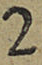2
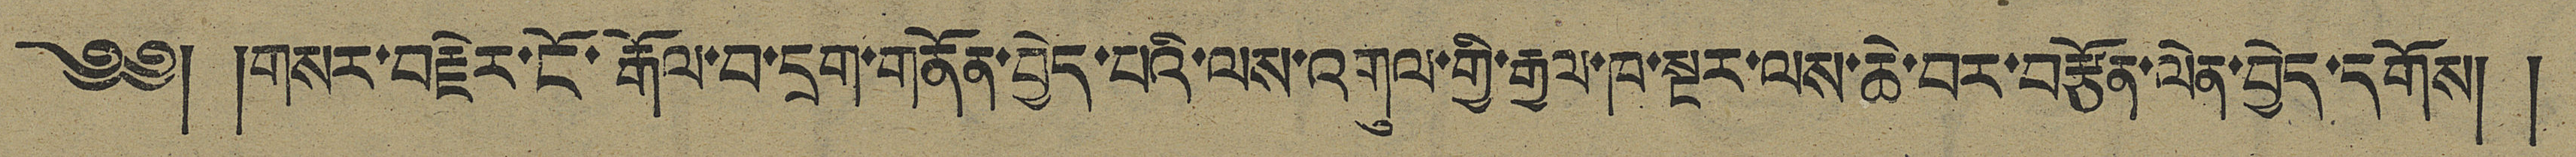༄༅། །གསར་བརྗེར་ངོ་རྒོལ་བ་དྲག་གནོན་བྱེད་པའི་ལས་འགུལ་གྱི་རྒྱལ་ཁ་སྔར་ལས་ཆེ་བར་བརྩོན་ལེན་བྱེད་དགོས། །
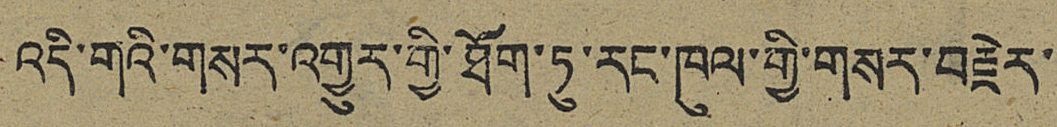འདི་གའི་གསར་འགྱུར་གྱི་ཐོག་ཏུ་རང་ཁུལ་གྱི་གསར་བརྗེར་
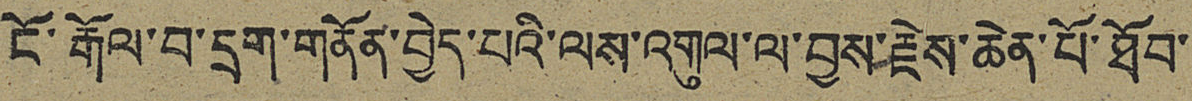ངོ་རྒོལ་བ་དྲག་གནོན་བྱེད་པའི་ལས་འགུལ་ལ་བྱས་རྗེས་ཆེན་པོ་ཐོབ་
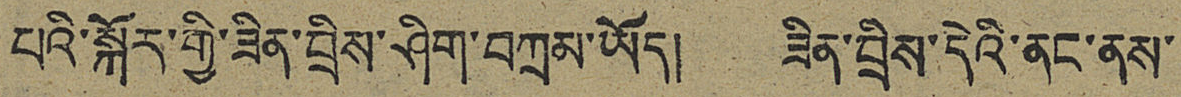པའི་སྐོར་གྱི་ཟིན་བྲིས་ཤིག་བཀྲམ་ཡོད། ཟིན་བྲིས་དེའི་ནང་ནས་
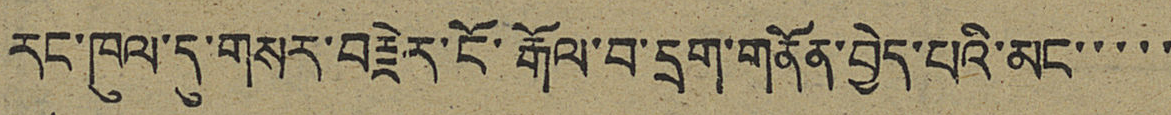རང་ཁུལ་དུ་གསར་བརྗེར་ངོ་རྒོ་བ་དྲག་གནོན་བྱེད་པའི་མང་་་་་
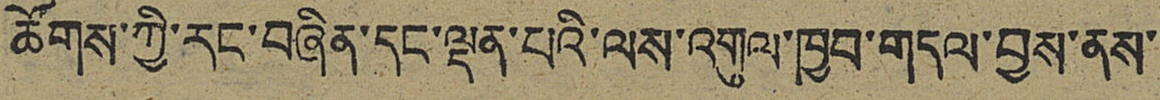ཚོགས་ཀྱི་རང་བཞིན་དང་ལྡན་པའི་ལས་འགུལ་ཁྱབ་གདལ་བྱས་ནས་་
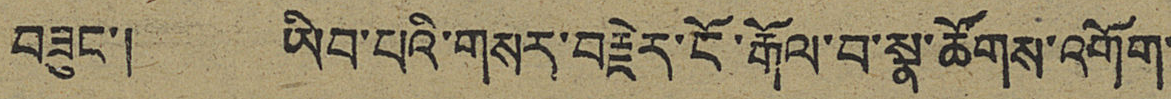བཟུང་། ཡིབ་པའི་གསར་བརྗེར་ངོ་རྒོལ་བ་སྣ་ཚོགས་འགོག་
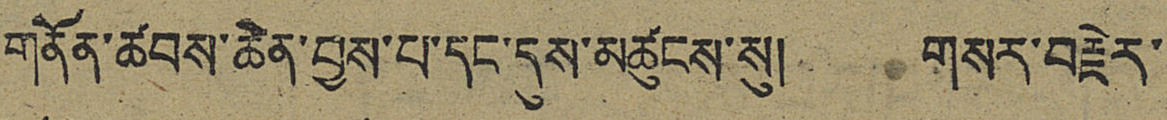གནོན་ཚོབས་ཆེན་བྱས་པ་དང་དུས་མཚུངས་སུ། གསར་བརྗེར་
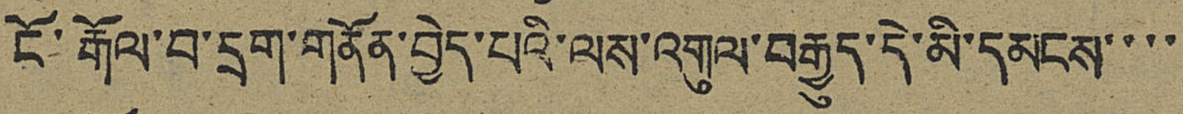ངོ་རྒོལ་བ་དྲག་གནོན་བྱེད་པའི་ལས་འགུལ་བརྒྱུད་དེ་མི་དམངས་་་་
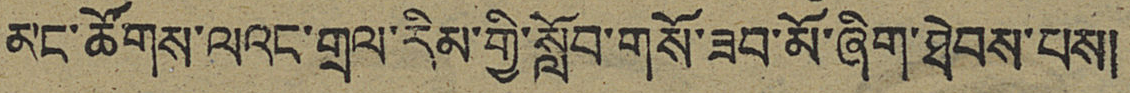མང་ཚོགས་ལའང་གྲལ་རིམ་གྱི་སློབ་གསོ་ཟབ་མོ་ཞིག་ཐེབས་པས།
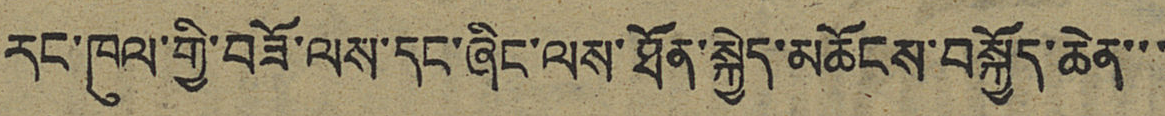རང་ཁུལ་གྱི་བཟོ་ལས་དང་ཞིང་ལས་ཐོན་སྐྱེད་མཆོངས་བསྐྱོད་ཆེན་་་
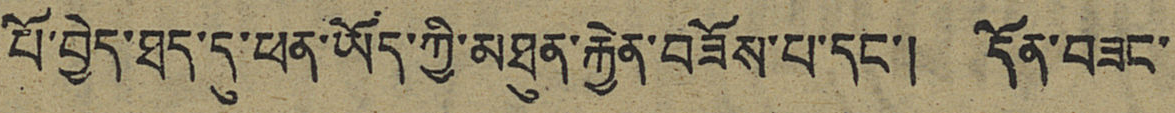པོ་བྱེད་ཐད་དུ་ཕན་ཡོད་ཀྱི་མཐུན་རྐྱེན་བཟོས་པ་དང་། དོན་བཟང་
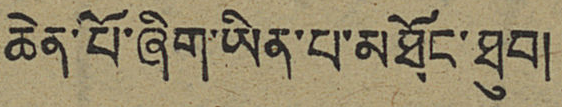ཆེན་པོ་ཞོག་ཡིན་པ་མཐོང་ཐུབ།
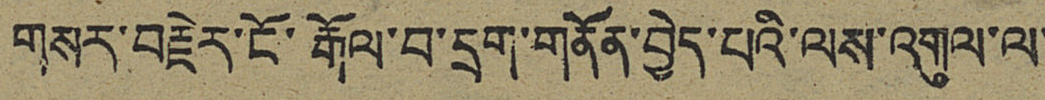གསར་བརྗེར་ངོ་རྒོལ་བ་དྲག་གནོན་བྱེད་པའི་ལས་འགུལ་ལ་
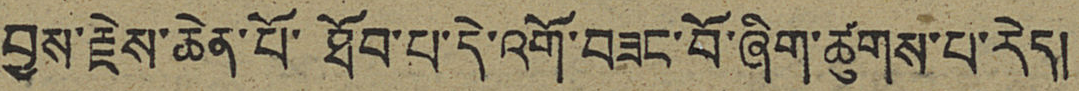བྱས་རྗེས་ཆེན་པོ་ཐོབ་པ་དེ་འགོ་བཟང་པོ་ཞིག་ཚུགས་པ་རེད།
